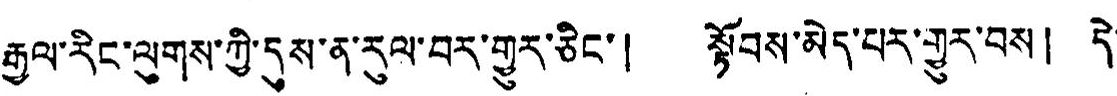རྒྱལ་རིང་ལུགས་ཀྱི་དུས་ན་རུལ་བར་གྱུར་ཅིང་། སྟོབས་མེད་པར་གྱུར་བས། དེ་
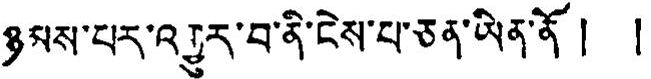ཉམས་པར་འགྱུར་བ་ནི་ངེས་པ་ཅན་ཡིན་ནོ ། །
